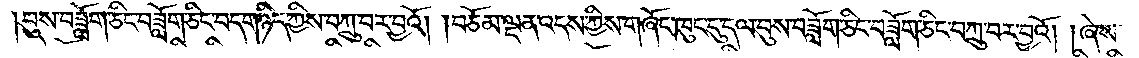བུས་བཟློག་ཅིང་བཟློག་ཅིང་བདག་ཉིད་ཀྱིས་བཀྲུ་བར་བྱའོ། །བཅོམ་ལྡན་འདས་ཀྱིས་གཞོང་ཁུང་དུ་དལ་བུས་བཟློག་ཅིང་བཟློག་ཅིང་བཀྲུ་བར་བྱའོ། །ཞེས་
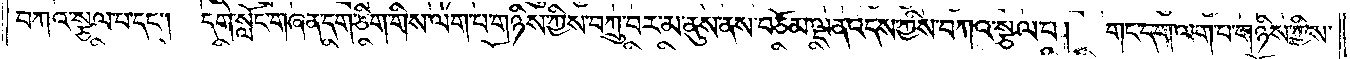བཀའ་སྩལ་པ་དང༌། དགེ་སློང་གཞན་དག་ཅིག་གིས་ལག་པ་གཉིས་ཀྱིས་བཀྲུ་བར་མ་ནུས་ནས་བཅོམ་ལྡན་འདས་ཀྱིས་བཀའ་སྩལ་པ། གང་དག་ལག་པ་གཉིས་ཀྱིས་
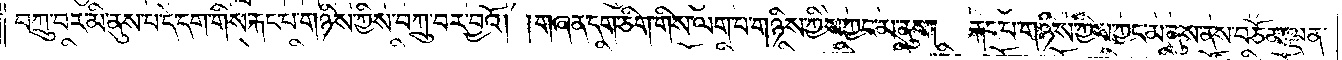བཀྲུ་བར་མི་ནུས་པ་དེ་དག་གིས་རྐང་པ་གཉིས་ཀྱིས་བཀྲུ་བར་བྱའོ། །གཞན་དག་ཅིག་གིས་ལག་པ་གཉིས་ཀྱིས་ཀྱང་མ་ནུས། རྐང་པ་གཉིས་ཀྱིས་ཀྱང་མ་ནུས་ནས་བཅོམ་ལྡན་
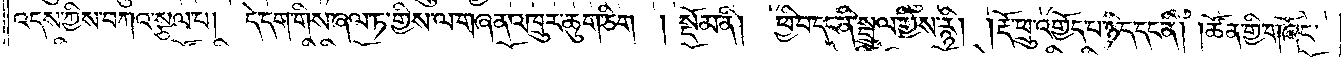འདས་ཀྱིས་བཀའ་སྩལ་པ། དེ་དག་གིས་ཞལ་ཏ་གྱིས་ལ་གཞན་འཁྲུར་ཆུག་ཅིག    །སྡོམ་ནི། ཕྱི་བ་དང་ནི་སྦྲུལ་གྱིས་རྙི། །རྡོ་ཕྲུ་འགྱོད་པ་ཉིད་དང་ནི། །ཚོན་གྱི་གཞོང་
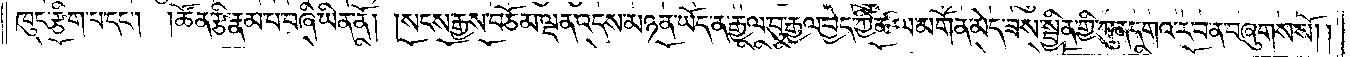ཁུང་རྩིག་པ་དང༌། །ཚོན་རྩི་རྣམ་པ་བཞི་ཡིན་ནོ། །སངས་རྒྱས་བཅོམ་ལྡན་འདས་མཉན་ཡོད་ན་རྒྱལ་བུ་རྒྱལ་བྱེད་ཀྱི་ཚལ་མགོན་མེད་ཟས་སྦྱིན་གྱི་ཀུན་དགའ་ར་བ་ན་བཞུགས་སོ། །
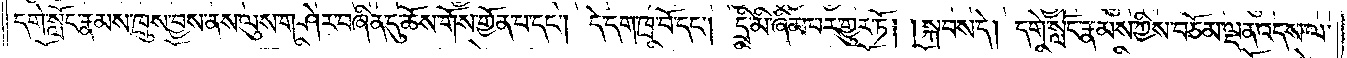དགེ་སློང་རྣམས་ཁྲུས་བྱས་ནས་ལུས་གཤེར་བཞིན་དུ་ཆོས་གོས་གྱོན་པ་དང༌། དེ་དག་ཁྲ་བོ་དང༌། དྲི་མི་ཞིམ་པར་གྱུར་ཏོ། །སྐབས་དེ། དགེ་སློང་རྣམས་ཀྱིས་བཅོམ་ལྡན་འདས་ལ་
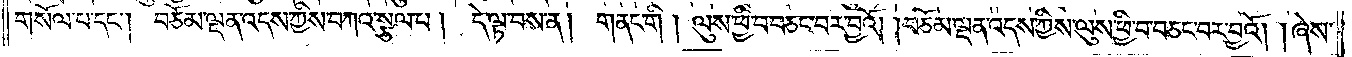གསོལ་པ་དང༌། བཅོམ་ལྡན་འདས་ཀྱིས་བཀའ་སྩལ་པ། དེ་ལྟ་བས་ན། གནང་གི། ལུས་ཕྱི་བ་བཅང་བར་བྱའོ། །བཅོམ་ལྡན་འདས་ཀྱིས་ལུས་ཕྱི་བ་བཅང་བར་བྱའོ། །ཞེས་
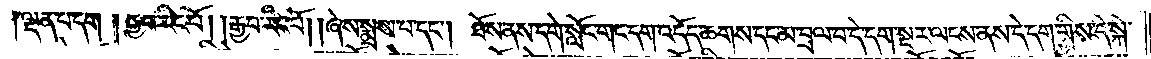ལྡན་པ་དག །རྒྱབ་རིང་པོ། །རྒྱབ་རིང་པོ། །ཞེས་སྨྲས་པ་དང༌། ཐོས་ནས་དགེ་སློང་གང་དག་འདོད་ཆགས་དང་མ་བྲལ་བ་དེ་དག་སྔར་ལངས་ནས་དེ་དག་གིས་དེ་སྐེ་
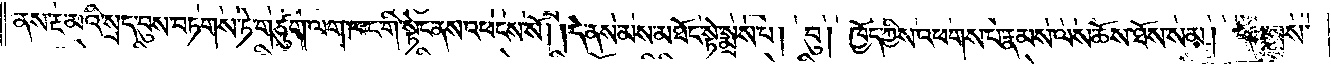ནས་རྔ་མའི་སྲད་བུས་བཏགས་ཏེ་གཙུག་ལག་ཁང་གི་སྟེང་ནས་འཕངས་སོ། །དེ་ནས་མས་མཐོང་སྟེ་སྨྲས་པ། བུ། ཁྱོད་ཀྱིས་འཕགས་པ་རྣམས་ལས་ཆོས་ཐོས་སམ། དེས་སྨྲས་
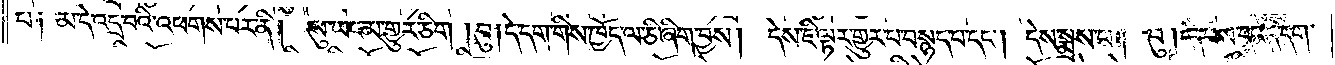པ༑ མ་དེ་འདྲ་བའི་འཕགས་པར་ནི། སུ་ཡང་མ་གྱུར་ཅིག །བུ། དེ་དག་གིས་ཁྱོད་ལ་ཅི་ཞིག་བྱས། དེས་ཇི་ལྟར་གྱུར་པ་བསྙད་པ་དང༌། དེས་སྨྲས་པ། བུ། དེ་བས་དང་དེ་དག་
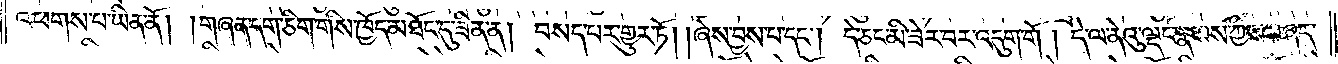འཕགས་པ་ཡིན་ནོ། །གཞན་དག་ཅིག་གིས་ཁྱོད་མཐོང་དུ་ཟིན་ན། བསད་པར་གྱུར་ཏོ། །ཞེས་བྱས་པ་དང༌། དེ་ཅང་མི་ཟེར་བར་འདུག་གོ། དེ་ལ་ནེའུ་ལྡང་རྣམས་ཀྱིས་བཞད་
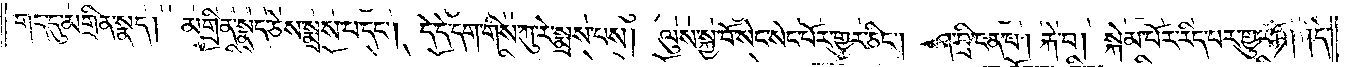གད་དུ་མགྲིན་སྣད། མགྲིན་སྣད་ཅེས་སྨྲས་པ་དང༌། དེ་དེ་དག་གིས་ཀུ་རེ་སྨྲས་པས། ལུས་སྐྱ་བོ་སེང་སེང་པོར་གྱུར་ཅིང༌། ཤ་བྲི་ངན་པ། རྐེ་བ། སྐེམ་པོར་རིད་པར་གྱུར་ཏོ། །དེ་
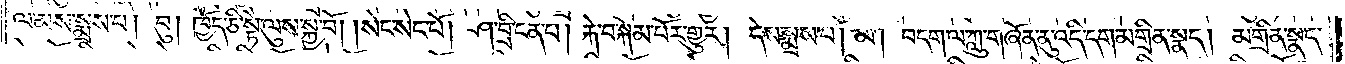ལ་མས་སྨྲས་པ། བུ། ཁྱོད་ཅི་སྟེ་ལུས་སྐྱ་བོ། །སེང་སེང་པོ། ཤ་བྲི་ངན་པ། རྐེ་བ་སྐེམ་པོ་གྱུར། དེས་སྨྲས་པ། མ། བདག་ལ་ཀླུ་གཞོན་ནུ་འདི་དག་མགྲིན་སྣད། མགྲིན་སྣད་
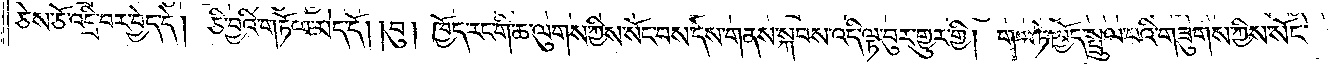ཅེས་ཅོ་འདྲི་བར་བྱེད་དེ། ཅི་བྱའི་གཏོལ་མེད་དོ། །བུ། ཁྱོད་རང་གི་ཆ་ལུགས་ཀྱིས་སོང་བས་དེས་གནས་སྐབས་འདི་ལྟ་བུར་གྱུར་གྱི། གལ་ཏེ་ཁྱོད་སྤྲུལ་པའི་གཟུགས་ཀྱིས་སོང་
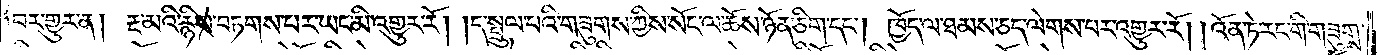བར་གྱུར་ན། རྔ་མའི་རྙིས་བཏགས་པར་ཡང་མི་འགྱུར་རོ། །ད་སྤྲུལ་པའི་གཟུགས་ཀྱིས་སོང་ལ་ཆོས་ཉོན་ཅིག་དང༌། ཁྱོད་ལ་ཐམས་ཅད་ལེགས་པར་འགྱུར་རོ། །འོན་ཏེ་རང་གི་གཟུགས་
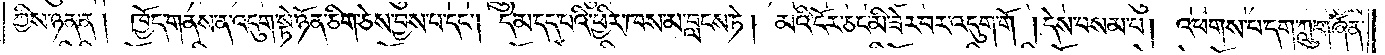ཀྱིས་ཉན་ན། ཁྱོད་གནས་ན་འདུག་སྟེ་ཉོན་ཅིག་ཅེས་བྱས་པ་དང༌། དེ་མ་དད་པའི་ཕྱིར་ཁས་མ་བླངས་ཏེ། མའི་ངོར་ཅང་མི་ཟེར་བར་འདུག་གོ །དེས་བསམ་པ། འཕགས་པ་དག་ཀླུ་གཞོན་
